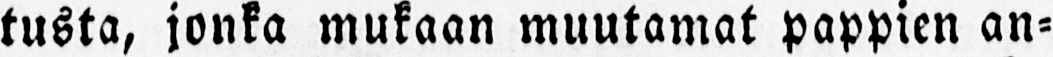tusta, jonka mukaan muutamat pappien an-
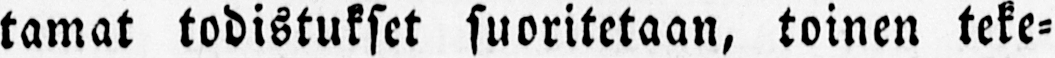tamat todistukset suoritetaan, toinen teke-
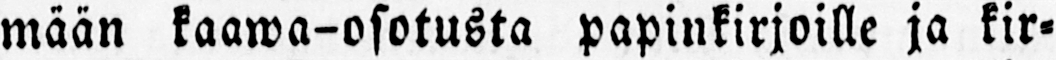mään kaawa-osotusta papinkirjoille ja kir-
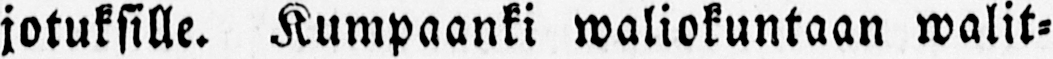jotuksille. Kumpaanki waliokuntaan walit-
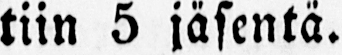tiin 5 jäsentä.
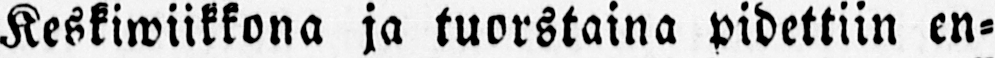Keskiwiikkona ja tuorstaina pidettiin en-
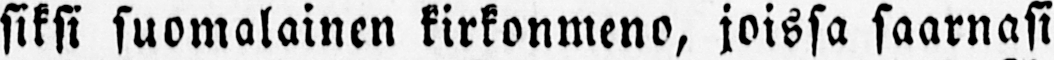siksi suomalainen kirkonmeno, joissa saarnasi
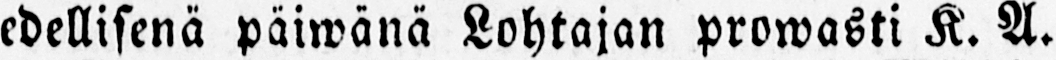edellisenä päiwänä Lohtajan prowasti K. A.
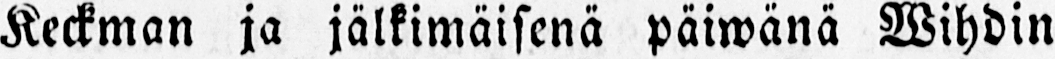Keckman ja jälkimäisenä päiwänä Wihdin
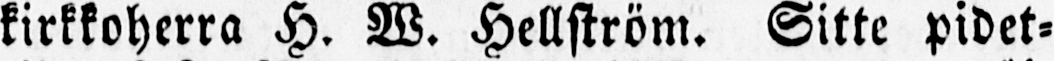kirkkoherra H. W. Hellström. Sitte pidet-
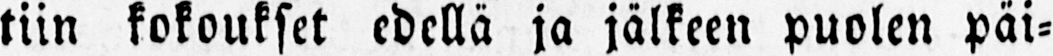tiin kokoukset edellä ja jälkeen puolen päi-
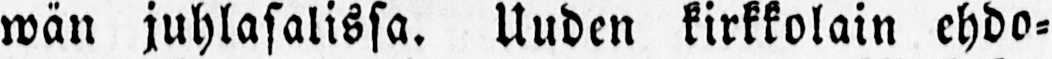wän juhlasalissa. Uuden kirkkolain ehdo-
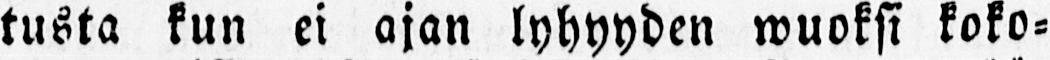tusta kun ei ajan lyhyyden wuoksi koko-
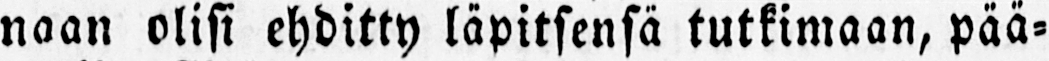naan olisi ehditty läpitsensä tutkimaan, pää-
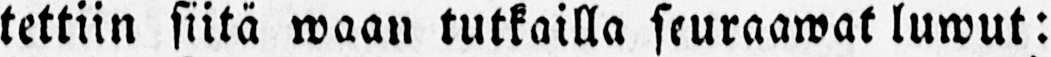tettiin siitä waan tutkailla seuraawat luwut:
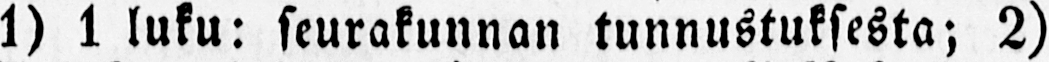1) 1 luku: seurakunnan tunnustuksesta; 2)
